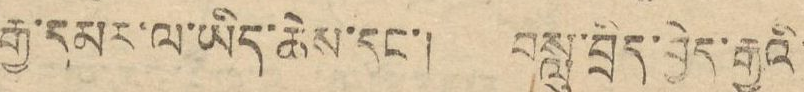རྒྱ་དམར་ལ་ཡིད་ཆེས་དང་། བསླུ་བྲིད་བྱེད་རྒྱུའི་
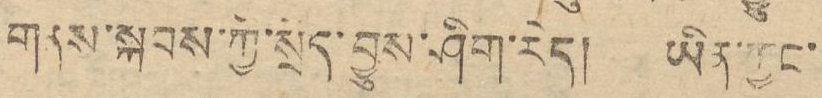གནས་སྐབས་ཀྱི་སྲིད་བྱུས་ཤིག་རེད། ཡིན་ཀྱང་
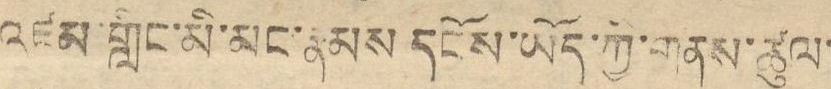འཛམ་གླིང་མི་མང་རྣམས དངོས་ཡོད་ཀྱི་གནས་ཚུལ་
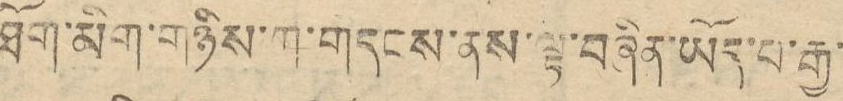ཐོམ་མིག་གཉིས་ཀ་གདངས་ནས་ལྟ་བཞིན་ཡོད་པ་རྒྱ་
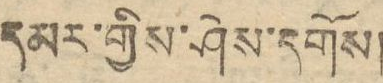དམར་གྱིས་ཤེས་དགོས།
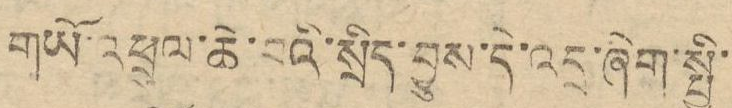གཡོ་འཕྲུལ་ཆེ་བའི་སྲིད་བྱུས་དེ་འདྲ་ཞིག་སྤྱི་
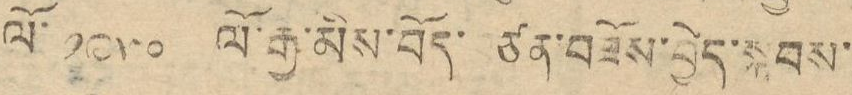ལོ་ ༡༩༥༠ ལོ་རྒྱ་མིས་བོད་བཙན་བཟོས་བྱེད་སྐབས་
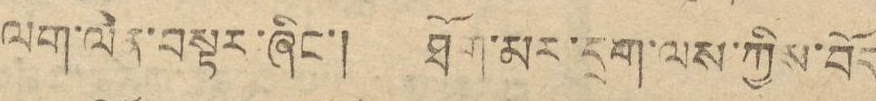ལག་ལེན་བསྟར་ཞིང་། ཐོག་མར་དྲག་ལས་ཀྱིས་བོད
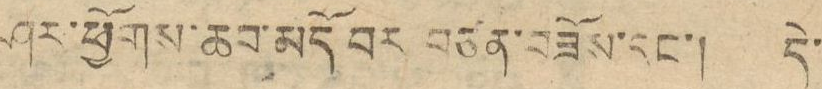ཤར་ཕྱོགས་ཆབ་མདོ བར བཙན་བཟོས་དང་། དེ་
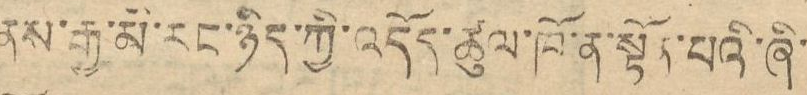ནས་རྒྱ་མི་རང་ཉིད་ཀྱི་འདོད་ཚུལ་ཁོ་ན་སྟོན་པའི་ཞི་
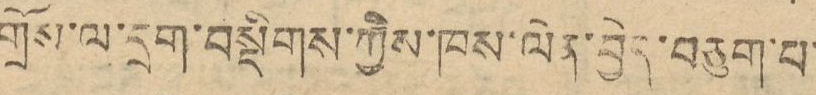གྲོས་ལ་དྲག་བསྡིགས་ཀྱིས་ཁས་ལེན་བྱེད་བཅུག་པ་
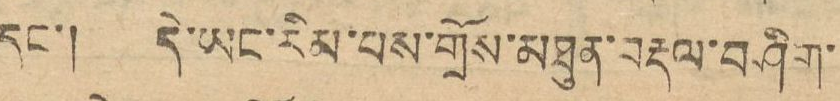དང་། དེ་ཡང་རིམ་པས་གྲོས་མཐུན་བརྡལ་བཤིག་
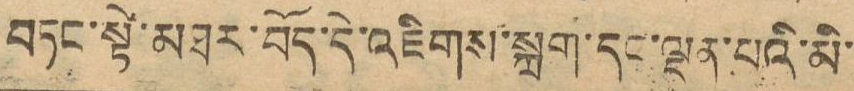བཏང་སྟེ་མཐར་བོད་དེ་འཇིགས་སྐྲག་དང་ལྡན་པའི་མི་
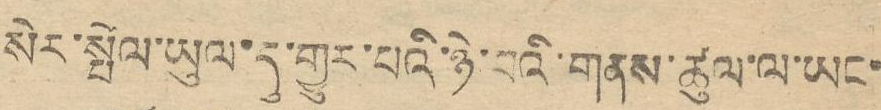སེར་སྤེལ་ཡུལ་དུ་གྱུར་བའི་ཉེ་བའི་གནས་ཚུལ་ལ་ཡང་
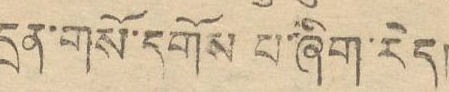དྲན་གསོ་དགོས པ་ཞིག་རེད།
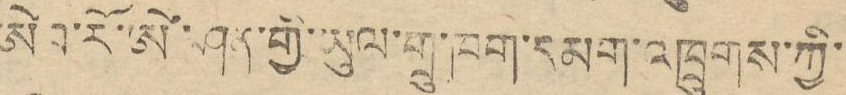ཨེབ་རོ་ཨེ་ཤན་གྱི་ཡུལ་གྲུ་ཁག་དམག་འཁྲུགས་ཀྱི་
